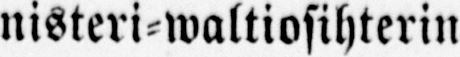nisteri-waltiosihterin toimiakin, minis-
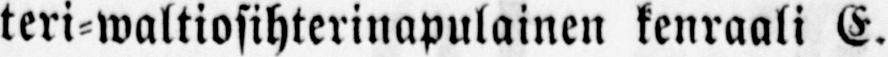teri-waltiosihterinapulainen kenraali E.
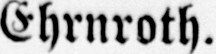Ehrnroth.
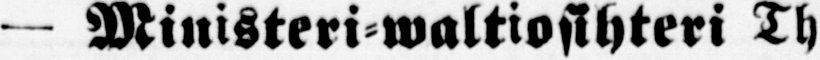— Ministeri-waltiosihteri Th.
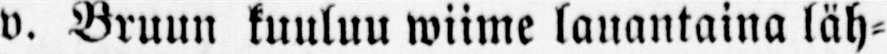v. Bruun kuuluu wiime lauantaina läh-
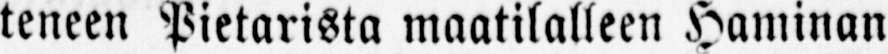teneen Pietarista maatilalleen Haminan
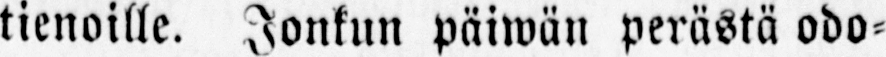tienoille. Jonkun päiwän perästä odo-
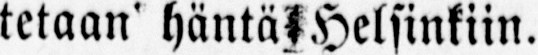tetaan häntä Helsinkiin.
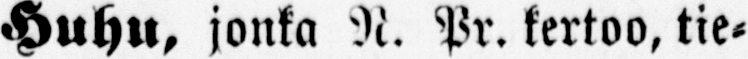— Huhu, jonka N. Pr. kertoo, tie-
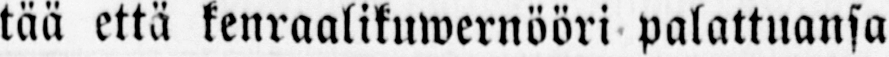tää että kenraalikuwernööri palattuansa
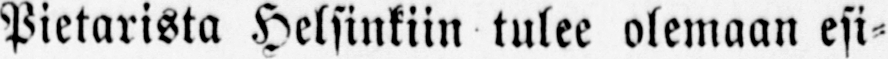Pietarista Helsinkiin tulee olemaan esi-
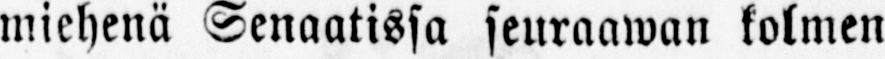miehenä Senaatissa seuraawan kolmen
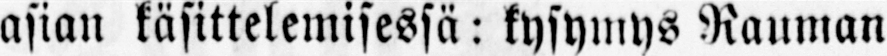asian käsittelemisessä: kysymys Rauman
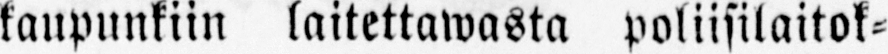kaupunkiin laitettawasta poliisilaitok-
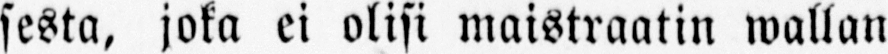sesta, joka ei olisi maistraatin wallan
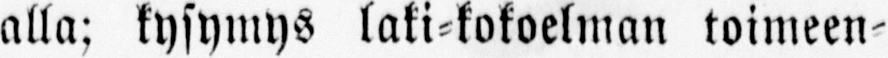alla: kysymys laki-kokoelman toimeen-
